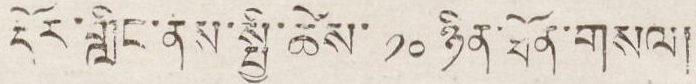རྡོར་གླིང་ནས་སྤྱི་ཚེས་ ༡༠ ཉིན་ཐོན་གསལ།
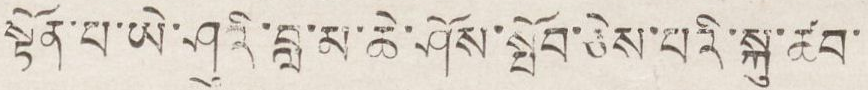སྟོན་པ་ཡེ་ཤུའི་བླ་མ་ཆེ་ཤོས་སྤོས་ཅེས་པའི་སྐུ་ཚབ་
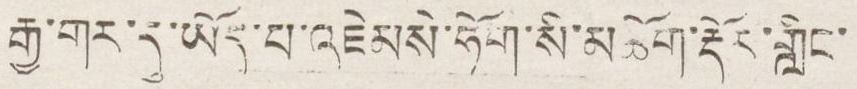རྒྱ་གར་དུ་ཡོད་པ་འཇེམསེ་ཧོག་སི་མཆོག་རྡོར་གླིང་
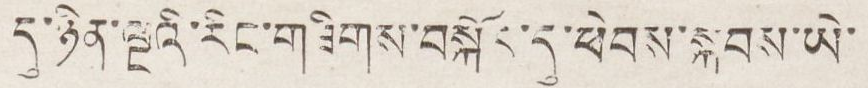དུ་ཉིན་ལྔའི་རིང་གཟིགས་བསྐོར་དུ་ཕེབས་ཡེ་
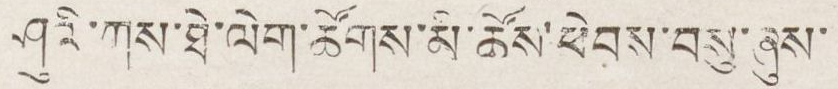ཤུའི་ཀས་ཐེ་ལེག་ཚོགས་མི་ཚོས་ཕེབས་བསུ་ཞུས་
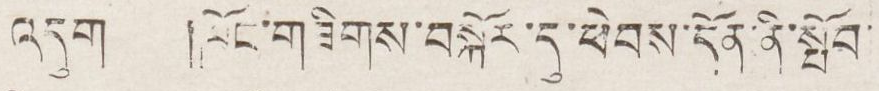འདུག །ཁོང་གཟིགས་བསྐོར་དུ་ཕེབས་དོན་ནི་སྤོབ་
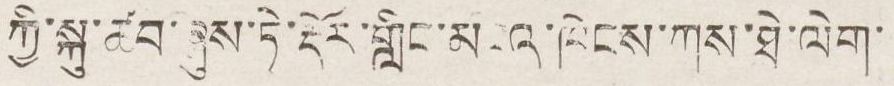ཀྱི་སྐུ་ཚབ་ཞུས་ཏེ་རྡོར་གླིང་མངའ་ཁོངས་ཀས་ཐེ་ལེག་
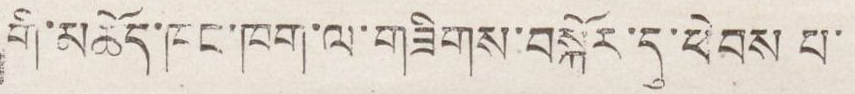གི་མཆོད་ཁང་ཁག་ལ་གཟིགས་བསྐོར་དུ་ཕེབས པ་
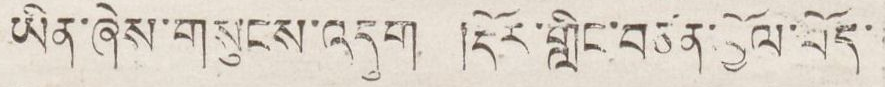ཡིན་ཞེས་གསུངས་འདུག །རྡོར་གླིང་བཙན་བྱོལ་བོད་
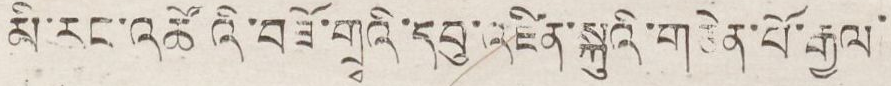མི་རང་འཚོའི་བཟོ་གྲྭའི་དབུ་འཛིན་སྐུའི་གཅེན་པོ་རྒྱལ་
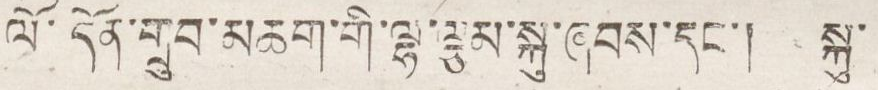ལོ་དོན་གྲུབ་མཆག་གི་ལྷ་ལྩམ་སྐུ་ཞབས་དང་། སྐུ་
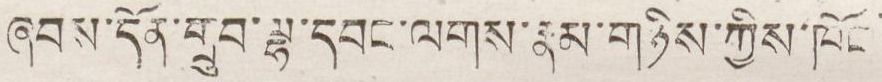ཞབས་དོན་གྲུབ་ལྷ་དབང་ལགས་རྣམ་གཉིས་ཀྱིས་ཁོང
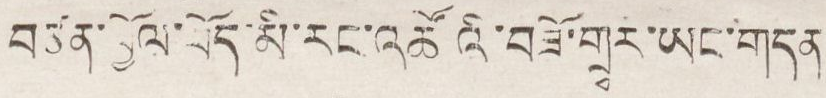བཙན་བྱོལ་བོད་མི་རང་འཚོའི་བཟོ་གྲྭར་ཡང་གདན
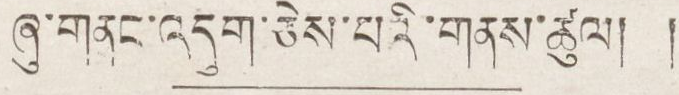ཞུ་གནང་འདུག་ཅེས་པའི་གནས་ཚུལ། །
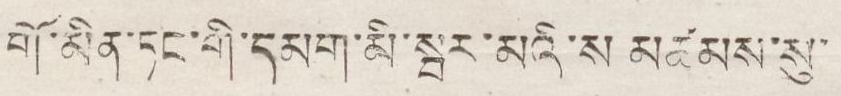གོ་མིན་ཏང་གི་དམག་མི་སྦར་མའི་ས མཚམས་སུ་
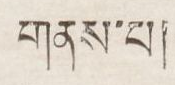གནས་པ།
